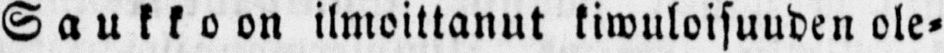Saukkoon ilmoittanut kiwuloisuuden ole-
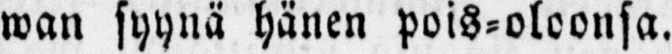wan syynä hänen pois-oloonsa.
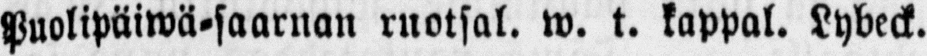Puolipäiwä-saarnan ruotsal. w. t. kappal. Lybeck.
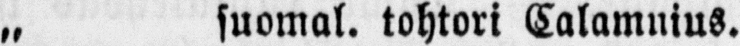„ suomal. tohtori Calamnius.
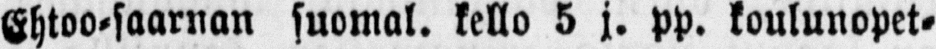Ehtoo-saarnan suomal, kello 5 j. pp. koulunopet-
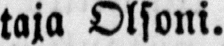taja Olsoni.
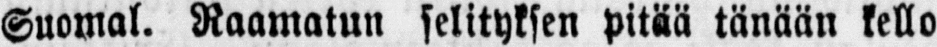Suomal. Raamatun selityksen pitää tänään kello
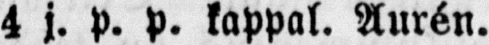4 j. p. p. kappal. Aurén.
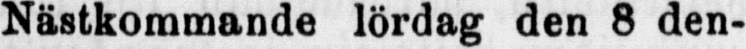Nästkommande lördag den 8 den-
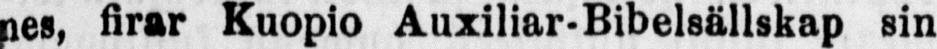nes, firar Kuopio Auxiliar-Bibelsällskap sin
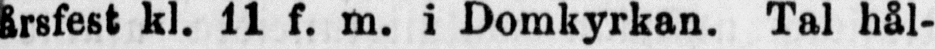årsfest kl. 11 k. m. i Domkyran. Tal hål-
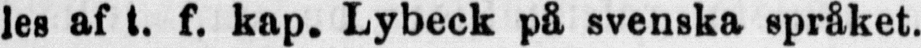les af t. k. kap. Lybeck på svenska språket.
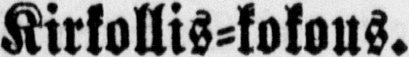Kirkollis-kokous.
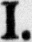I.
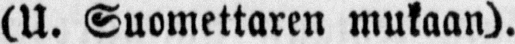(U. Suomettaren mukaan).
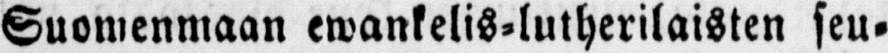Suomenmaan ewankelis-lutherilaisten seu-
